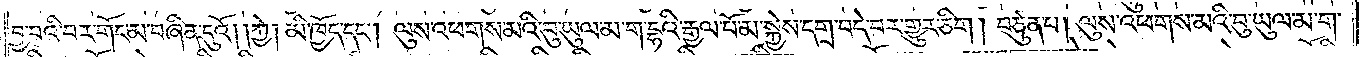བྱ་བའི་བར་གོང་མ་བཞིན་དུའོ། །ཀྱེ། མི་ཁྱོད་དང༌། ལུས་འཕགས་མའི་བུ་ཡུལ་མ་ག་དྷའི་རྒྱལ་པོ་མ་སྐྱེས་དགྲ་བདེ་བར་གྱུར་ཅིག། བཙུན་པ། ལུས་འཕགས་མའི་བུ་ཡུལ་མ་ག་
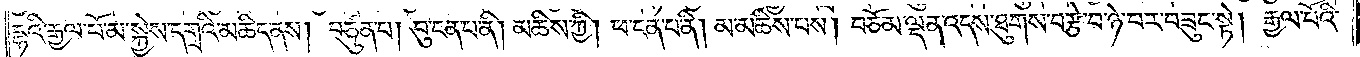དྷའི་རྒྱལ་པོ་མ་སྐྱེས་དགྲའི་མཆིད་ནས། བཙུན་པ། བུ་ངན་པ་ནི། མཆིས་ཀྱི། ཕ་ངན་པ་ནི། མ་མཆིས་པས། བཅོམ་ལྡན་འདས་ཐུགས་བརྩེ་བ་ཉེ་བར་བཟུང་སྟེ། རྒྱལ་པོའི་
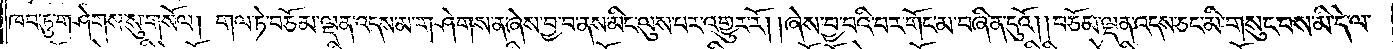ཁབ་ཏུ་གཤེགས་སུ་གསོལ། གལ་ཏེ་བཅོམ་ལྡན་འདས་མ་གཤེགས་ན་ཞེས་བྱ་བ་ནས་མིང་ལུས་པར་འགྱུར་རོ། །ཞེས་བྱ་བའི་བར་གོང་མ་བཞིན་དུའོ། །བཅོམ་ལྡན་འདས་ཅང་མི་གསུང་བས་མི་དེ་ལ་
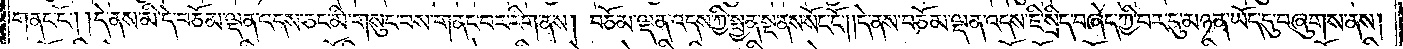གནང་ངོ༌། །དེ་ནས་མི་དེ་བཅོམ་ལྡན་འདས་ཅང་མི་གསུང་བས་གནང་བར་རིག་ནས། བཅོམ་ལྡན་འདས་ཀྱི་སྤྱན་སྔ་ནས་སོང་ངོ༌། །དེ་ནས་བཅོམ་ལྡན་འདས་ཇི་སྲིད་བཞེད་ཀྱི་བར་དུ་མཉན་ཡོད་དུ་བཞུགས་ནས།
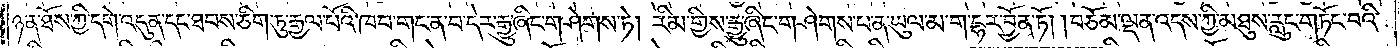ཉན་ཐོས་ཀྱི་དགེ་འདུན་དང་ཐབས་ཅིག་ཏུ་རྒྱལ་པོའི་ཁབ་གང་ན་བ་དེར་རྒྱུ་ཞིང་གཤེགས་ཏེ། རིམ་གྱིས་རྒྱུ་ཞིང་གཤེགས་པ་ན་ཡུལ་མ་ག་དྷར་བྱོན་ཏོ། །བཅོམ་ལྡན་འདས་ཀྱི་མཐུས་རླུང་གཏོང་བའི་
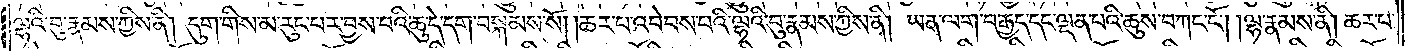ལྷའི་བུ་རྣམས་ཀྱིས་ནི། དུག་གིས་མ་རུང་བར་བྱས་པའི་ཆུ་དེ་དག་བསྐམས་སོ། །ཆར་པ་འབེབས་པའི་ལྷའི་བུ་རྣམས་ཀྱིས་ནི། ཡན་ལག་བརྒྱད་དང་ལྡན་པའི་ཆུས་བཀང་ངོ༌། །ལྷ་རྣམས་ནི། ཆར་པ་
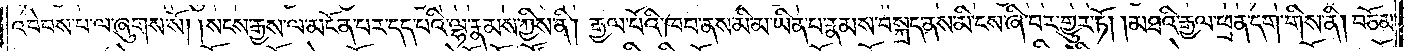འབེབས་པ་ལ་ཞུགས་སོ། །སངས་རྒྱས་ལ་མངོན་པར་དད་པའི་ལྷ་རྣམས་ཀྱིས་ནི། རྒྱལ་པོའི་ཁབ་ནས་མི་མ་ཡིན་པ་རྣམས་བསྐྲད་ནས་མི་ངས་ཞི་བར་འགྱུར་རོ། །མཐའི་རྒྱལ་ཕྲན་དག་གིས་ནི། བཅོམ་
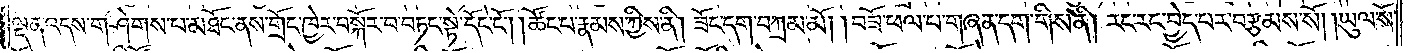ལྡན་འདས་གཤེགས་པ་མཐོང་ནས་གྲོང་ཁྱེར་བསྐོར་བ་བཏང་སྟེ་དོང་ངོ༌། །ཚོང་པ་རྣམས་ཀྱིས་ནི། ཟོང་དག་བཀྲམ་མོ། །བཟོ་ཕལ་པ་གཞན་དག་གིས་ནི། རང་རང་བྱེད་པར་བརྩམས་སོ། །ཡུལ་སོ་
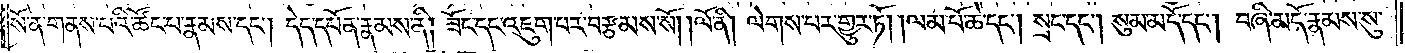སོ་ན་གནས་པའི་ཚོང་པ་རྣམས་དང༌། དེད་དཔོན་རྣམས་ནི། ཟོང་དང་འཇུག་པར་བརྩམས་སོ། །ལོ་ནི། ལེགས་པར་གྱུར་ཏོ། །ལམ་པོ་ཆེ་དང༌། སྲང་དང༌། སུམ་མདོ་དང༌། བཞི་མདོ་རྣམས་སུ་
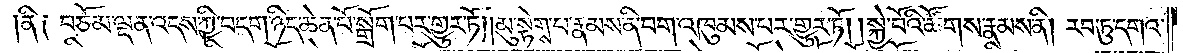ནི༑ བཅོམ་ལྡན་འདས་ཀྱི་བདག་ཉིད་ཆེན་པོ་སྒྲོག་པར་གྱུར་ཏོ། །མུ་སྟེགས་པ་རྣམས་ནི་བག་འཁུམས་པར་གྱུར་ཏོ། །སྐྱེ་བོའི་ཚོགས་རྣམས་ནི། རབ་ཏུ་དགའ་
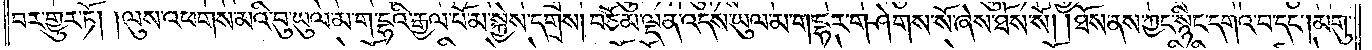བར་གྱུར་ཏོ། །ལུས་འཕགས་མའི་བུ་ཡུལ་མ་ག་དྷའི་རྒྱལ་པོ་མ་སྐྱེས་དགྲས། བཅོམ་ལྡན་འདས་ཡུལ་མ་ག་དྷར་གཤེགས་སོ་ཞེས་ཐོས་སོ། །ཐོས་ནས་ཀྱང་སྙིང་དགའ་བ་དང༌། མགུ་
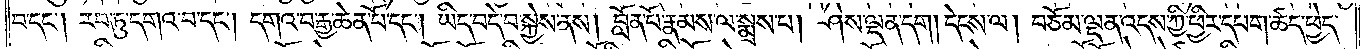བ་དང༌། རབ་ཏུ་དགའ་བ་དང༌། དགའ་བ་རྒྱ་ཆེན་པོ་དང༌། ཡིད་བདེ་བ་སྐྱེས་ནས། བློན་པོ་རྣམས་ལ་སྨྲས་པ། ཤེས་ལྡན་དག། དེངས་ལ། བཅོམ་ལྡན་འདས་ཀྱི་ཕྱིར་དཔག་ཚད་ཕྱེད་
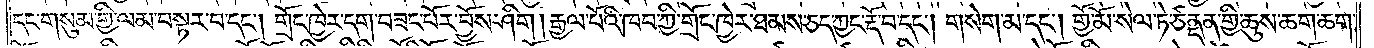དང་གསུམ་གྱི་ལམ་བསྟར་བ་དང༌། གྲོང་ཁྱེར་དག་བཟང་པོར་བྱོས་ཤིག །རྒྱལ་པོའི་ཁབ་ཀྱི་གྲོང་ཁྱེར་ཐམས་ཅད་ཀྱང་རྡོ་བ་དང༌། གསེག་མ་དང༌། གྱོ་མོ་སེལ་ཏེ་ཙནྡན་གྱི་ཆུས་ཆག་ཆག་
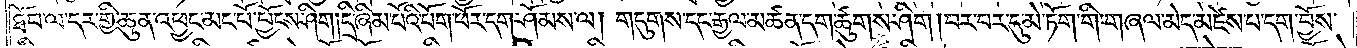ཐོབ་ལ་དར་གྱི་ཆུན་འཕྱང་མང་པོ་པྱོངས་ཤིག །དྲི་ཞིམ་པོའི་པོག་ཕོར་དག་ཤོམས་ལ། གདུགས་དང་རྒྱལ་མཚན་དག་ཚུགས་ཤིག །བར་བར་དུ་མེ་ཏོག་གི་གཞལ་མེད་མཛེས་པ་དག་བྱོས་
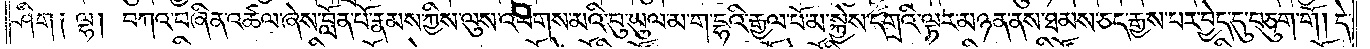ཤིག༑ ལྷ། བཀའ་བཞིན་འཚལ་ཞེས་བློན་པོ་རྣམས་ཀྱིས་ལུས་འཕགས་མའི་བུ་ཡུལ་མ་ག་དྷའི་རྒྱལ་པོ་མ་སྐྱེས་དགྲའི་ལྟར་མཉན་ནས་ཐམས་ཅད་རྒྱས་པར་བྱེད་དུ་བཅུག་གོ། དེ་
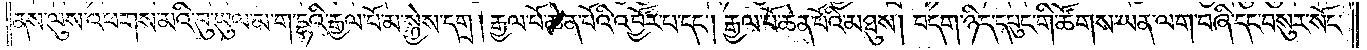ནས་ལུས་འཕགས་མའི་བུ་ཡུལ་མ་ག་དྷའི་རྒྱལ་པོ་མ་སྐྱེས་དགྲ། རྒྱལ་པོ་ཆེན་པོའི་འབྱོར་པ་དང༌། རྒྱལ་པོ་ཆེན་པོའི་མཐུས། བདག་ཉིད་དཔུང་གི་ཚོགས་ཡན་ལག་བཞི་དང་བསུར་སོང་
